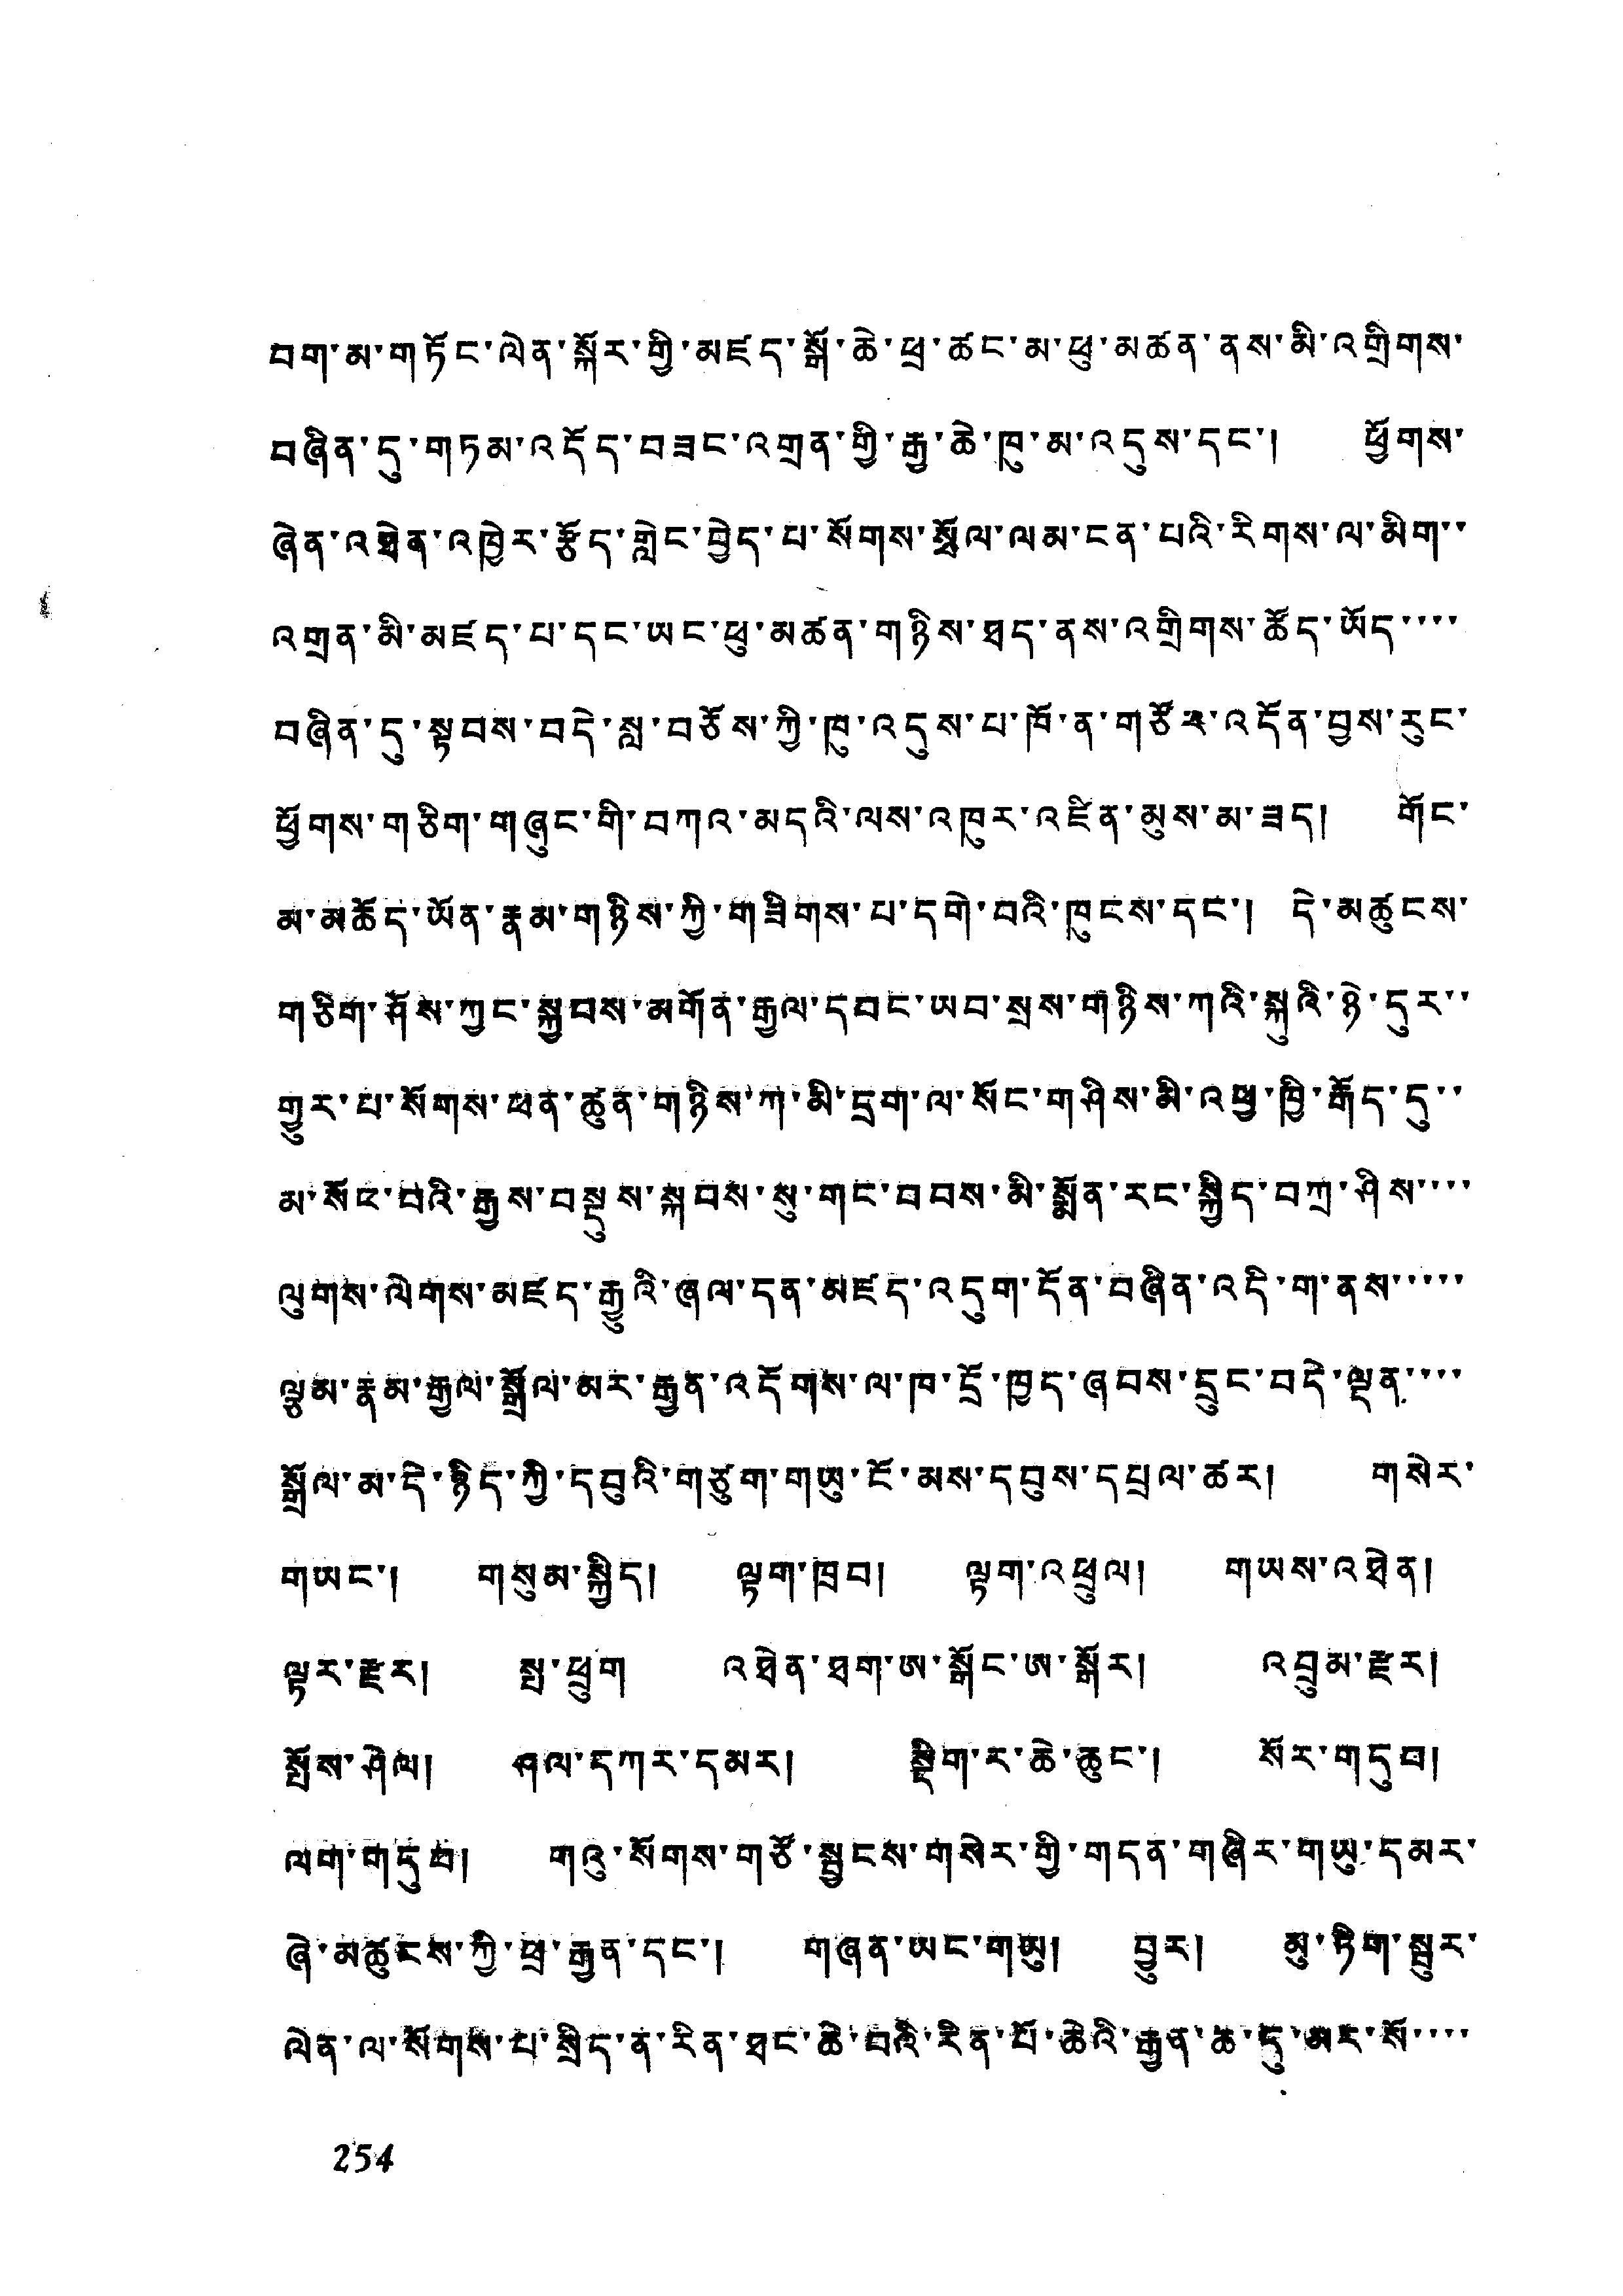བག་མ་གཏོང་ལེན་སྐོར་གྱི་མཛད་སྒོ་ཆེ་ཕྲ་ཚང་མ་ཕུ་མཚན་ནས་མི་འགྲིགས་
བཞིན་དུ་གཏམ་འདོད་བཟང་འགྲན་གྱི་རྒྱ་ཆེ་ཁུ་མ་འདུས་དང་། ཕྱོགས་
ཞེན་འཐེན་འཁྱེར་རྩོད་གླེང་བྱེད་པ་སོགས་སྲོལ་ལམ་ངན་པའི་རིགས་ལ་མིག་་
འགྲན་མི་མཛད་པ་དང་ཡང་ཕུ་མཚན་གཉིས་ཐད་ནས་འགྲིགས་ཚོད་ཡོད་་་་
བཞིན་དུ་སྟབས་བདེ་སླ་བཅོས་ཀྱི་ཁུ་འདུས་པ་ཁོ་ན་གཙོར་འདོན་བྱས་རུང་
ཕྱོགས་གཅིག་གཞུང་གི་བཀའ་མདའི་ལས་འཁུར་འཛིན་མུས་མ་ཟད་། གོང་
མ་མཆོད་ཡོན་རྣམ་གཉིས་ཀྱི་གཟིགས་པ་དགེ་བའི་ཁུངས་དང་། དེ་མཚུངས་
གཅིག་ཤོས་ཀྱང་སྐྱབས་མགོན་རྒྱལ་དབང་ཡབ་སྲས་གཉིས་ཀའི་སྐུའི་ཉེ་དུར་་
གྱུར་པ་སོགས་ཕན་ཚུན་གཉིས་ཀ་མི་དྲག་ལ་སོང་གཤིས་མི་འཕྱ་ཁྱི་རྒོད་དུ་་
མ་སོང་བའི་རྒྱས་བསྡུས་སྐབས་སུ་གང་བབས་མི་སྨོན་རང་སྐྱིད་བཀྲ་ཤིས་་་་
ལུགས་ལེགས་མཛད་རྒྱུའི་ཞལ་དན་མཛད་འདུག་དོན་བཞིན་འདི་ག་ནས་་་་་
ལྕམ་རྣམ་རྒྱལ་སྒྲོལ་མར་རྒྱན་འདོགས་ལ་ཁ་དྲོ་ཁྱད་ཞབས་དྲུང་བདེ་ལྡན་་་་
སྒྲོལ་མ་དེ་ཉིད་ཀྱི་དབུའི་གཙུག་གཡུ་ངོ་མས་དབུས་དཔྲལ་ཚར། གསེར་
གཡང་། གསུམ་སྐྱིད། ལྟག་ཁྲབ། ལྟག་འཕྲུལ། གཡས་འཐེན།
ལྟར་རྫར། སྤ་ཕྲུག འཐེན་ཐག་ཨ་སྒོང་ཨ་སྒོར། འབྲུམ་རྫར།
སྤོས་ཤེལ། ཤལ་དཀར་དམར། སྡིག་ར་ཆེ་ཆུང་། སོར་གདུབ།
ལག་གདུབ། གའུ་སོགས་གཙོ་སྦྱངས་གསེར་གྱི་གདན་གཞིར་གཡུ་དམར་
ཞེ་མཚུངས་ཀྱི་ཕྲ་རྒྱན་དང་། གཞན་ཡང་གཡུ། བྱུར། མུ་ཏིག་སྦུར་
ལེན་ལ་སོགས་པ་སྲིད་ན་རིན་ཐང་ཆེ་བའི་རིན་པོ་ཆེའི་རྒྱན་ཆ་དུ་མར་སོ་་་་
254
